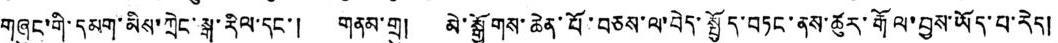གཞུང་གི་དམག་མིས་ཀྲེང་སྒ་རིལ་དང་། གནམ་གྲུ། མེ་སྒྱོགས་ཆེན་པོ་བཅས་ལ་བེད་སྤྱོད་བཏང་ནས་ཚུར་རྒོལ་བྱས་ཡོད་པ་རེད།
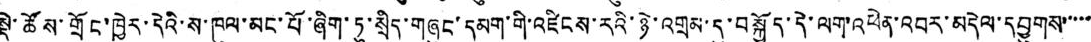སྡེ་ཚོས་གྲོང་ཁྱེར་དེའི་ས་ཁུལ་མང་པོ་ཞིག་ཏུ་སྲིད་གཞུང་དམག་གི་འཛིངས་རའི་ཉེ་འགྲམ་དུ་བསྐྱོད་དེ་ལག་འཕེན་འབར་མདེལ་དབྱུགས་་་་་
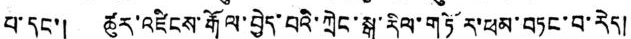པ་དང་། ཚུར་འཛིངས་རྒོལ་བྱེད་པའི་ཀྲེང་སྒ་རིལ་གཏོར་ཕམ་བཏང་བ་རེད།
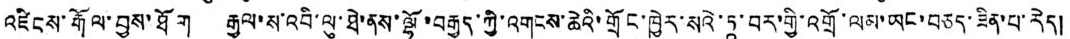འཛིངས་རྒོལ་བྱས་ཐོག རྒྱལ་ས་འབི་ལུ་ཐེ་ནས་ལྷོ་བརྒྱུད་ཀྱི་འགངས་ཆེའི་གྲོང་ཁྱེར་སའི་ཏཱ་བར་གྱི་འགྲོ་ལམ་ཡང་བཅད་ཟིན་པ་རེད།
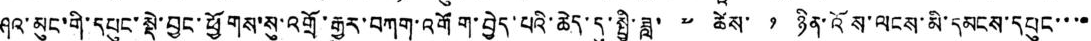ཤའ་མུང་གི་དཔུང་སྡེ་བྱང་ཕྱོགས་སུ་འགྲོ་རྒྱུར་བཀག་འགོག་བྱེད་པའི་ཆེད་དུ་སྤྱི་ཟླ་ ༧ ཚེས་ ༡ ཉིན་འོས་ལངས་མི་དམངས་དཔུང་་་་
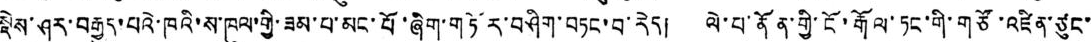སྡེས་ཤར་བརྒྱུད་པའི་ཁའི་ས་ཁུལ་གྱི་ཟམ་པ་མང་པོ་ཞིག་གཏོར་བཤིག་བཏང་བ་རེད། ལེ་པ་ནོན་གྱི་ངོ་རྒོལ་ཏང་གི་གཙོ་འཛིན་ཙུང་
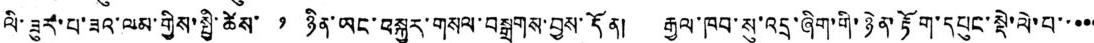ལི་ཟུར་པ་ཟའ་ལམ་གྱིས་སྤྱི་ཚེས་ ༡ ཉིན་ཡང་བསྐྱར་གསལ་བསྒྲགས་བྱས་དོན། རྒྱལ་ཁབ་སུ་འདྲ་ཞིག་གི་ཉེན་རྟོག་དཔུང་སྡེ་ལེ་པ་་་་་
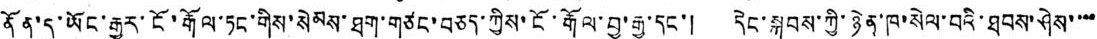ནོན་དུ་ཡོང་རྒྱུར་ངོ་རྒོལ་ཏང་གིས་སེམས་ཐག་གཙང་བཅད་ཀྱིས་ངོ་རྒོལ་བྱ་རྒྱུ་དང་། དེང་སྐབས་ཀྱི་ཉེན་ཁ་སེལ་བའི་ཐབས་ཤེས་་་་
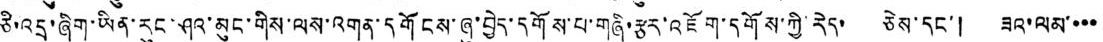ཅི་འདྲ་ཞིག་ཡིན་རུང་ཤའ་མུང་གིས་ལས་འགན་དགོངས་ཞུ་བྱེད་དགོས་པ་གཞི་རྩར་འཇོག་དགོས་ཀྱི་རེད་ ཅེས་དང་། ཟའ་ལམ་་་་
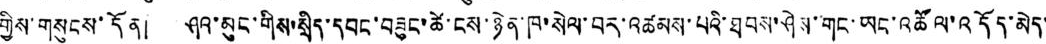གྱིས་གསུངས་དོན། ཤའ་མུང་གིས་སྲིད་དབང་བཟུང་ཚེ་ངས་ཉེན་ཁ་སེལ་བར་འཚམས་པའི་ཐབས་ཤེས་གང་ཡང་འཚོལ་འདོད་མེད་
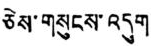ཅེས་གསུངས་འདུག
